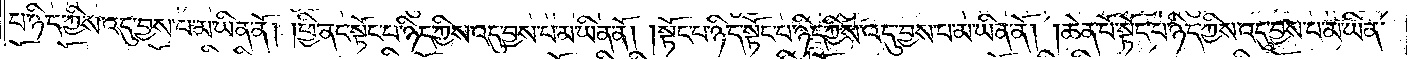པ་ཉིད་ཀྱིས་འདུ་བྱས་པ་མ་ཡིན་ནོ། །ཕྱི་ནང་སྟོང་པ་ཉིད་ཀྱིས་འདུ་བྱས་པ་མ་ཡིན་ནོ། །སྟོང་པ་ཉིད་སྟོང་པ་ཉིད་ཀྱིས་འདུ་བྱས་པ་མ་ཡིན་ནོ། །ཆེན་པོ་སྟོང་པ་ཉིད་ཀྱིས་འདུ་བྱས་པ་མ་ཡིན་
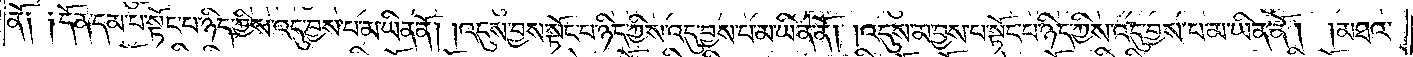ནོ༑ ༑དོན་དམ་པ་སྟོང་པ་ཉིད་ཀྱིས་འདུ་བྱས་པ་མ་ཡིན་ནོ། །འདུས་བྱས་སྟོང་པ་ཉིད་ཀྱིས་འདུ་བྱས་པ་མ་ཡིན་ནོ། །འདུས་མ་བྱས་པ་སྟོང་པ་ཉིད་ཀྱིས་འདུ་བྱས་པ་མ་ཡིན་ནོ། །མཐའ་
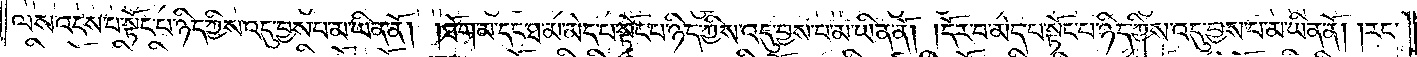ལས་འདས་པ་སྟོང་པ་ཉིད་ཀྱིས་འདུ་བྱས་པ་མ་ཡིན་ནོ། །ཐོག་མ་དང་ཐ་མ་མེད་པ་སྟོང་པ་ཉིད་ཀྱིས་འདུ་བྱས་པ་མ་ཡིན་ནོ། །དོར་བ་མེད་པ་སྟོང་པ་ཉིད་ཀྱིས་འདུ་བྱས་པ་མ་ཡིན་ནོ། །རང་
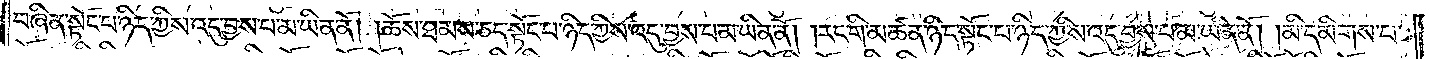བཞིན་སྟོང་པ་ཉིད་ཀྱིས་འདུ་བྱས་པ་མ་ཡིན་ནོ། །ཆོས་ཐམས་ཅད་སྟོང་པ་ཉིད་ཀྱིས་འདུ་བྱས་པ་མ་ཡིན་ནོ། །རང་གི་མཚན་ཉིད་སྟོང་པ་ཉིད་ཀྱིས་འདུ་བྱས་པ་མ་ཡིན་ནོ། །མི་དམིགས་པ་
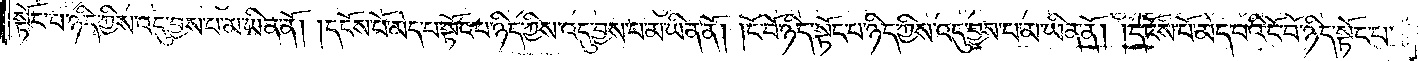སྟོང་པ་ཉིད་ཀྱིས་འདུ་བྱས་པ་མ་ཡིན་ནོ། །དངོས་པོ་མེད་པ་སྟོང་པ་ཉིད་ཀྱིས་འདུ་བྱས་པ་མ་ཡིན་ནོ། །ངོ་བོ་ཉིད་སྟོང་པ་ཉིད་ཀྱིས་འདུ་བྱས་པ་མ་ཡིན་ནོ། །དངོས་པོ་མེད་པའི་ངོ་བོ་ཉིད་སྟོང་པ་
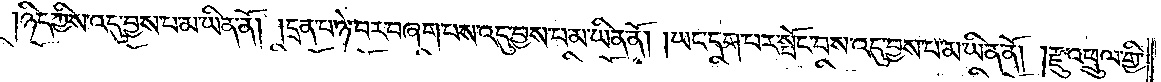ཉིད་ཀྱིས་འདུ་བྱས་པ་མ་ཡིན་ནོ། །དྲན་པ་ཉེ་བར་བཞག་པས་འདུ་བྱས་པ་མ་ཡིན་ནོ། །ཡང་དག་པར་སྤོང་བས་འདུ་བྱས་པ་མ་ཡིན་ནོ། །རྫུ་འཕྲུལ་གྱི་
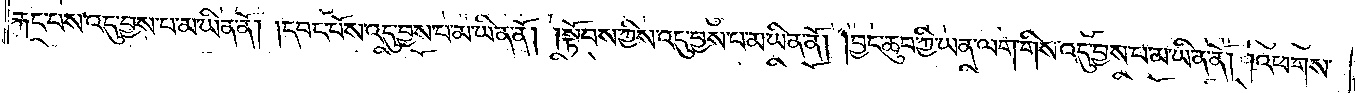རྐང་པས་འདུ་བྱས་པ་མ་ཡིན་ནོ། །དབང་པོས་འདུ་བྱས་པ་མ་ཡིན་ནོ། །སྟོབས་ཀྱིས་འདུ་བྱས་པ་མ་ཡིན་ནོ། །བྱང་ཆུབ་ཀྱི་ཡན་ལག་གིས་འདུ་བྱས་པ་མ་ཡིན་ནོ། །འཕགས་
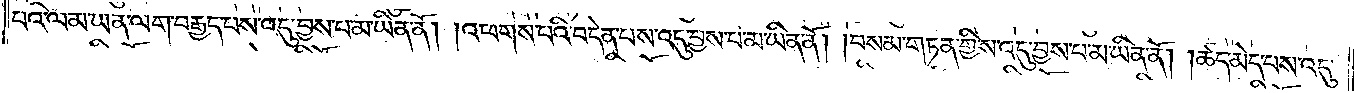པའི་ལམ་ཡན་ལག་བརྒྱད་པས་འདུ་བྱས་པ་མ་ཡིན་ནོ། །འཕགས་པའི་བདེན་པས་འདུ་བྱས་པ་མ་ཡིན་ནོ། །བསམ་གཏན་གྱིས་འདུ་བྱས་པ་མ་ཡིན་ནོ། །ཚད་མེད་པས་འདུ་
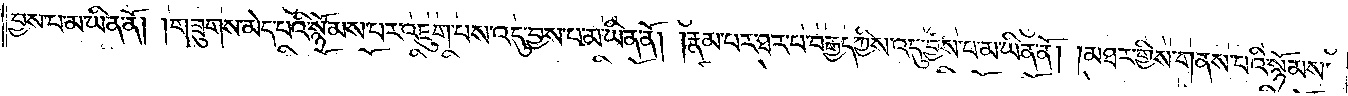བྱས་པ་མ་ཡིན་ནོ། །གཟུགས་མེད་པའི་སྙོམས་པར་འཇུག་པས་འདུ་བྱས་པ་མ་ཡིན་ནོ། །རྣམ་པར་ཐར་པ་བརྒྱད་ཀྱིས་འདུ་བྱས་པ་མ་ཡིན་ནོ། །མཐར་གྱིས་གནས་པའི་སྙོམས་
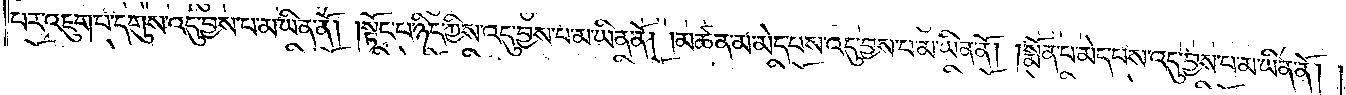པར་འཇུག་པ་དགུས་འདུ་བྱས་པ་མ་ཡིན་ནོ། །སྟོང་པ་ཉིད་ཀྱིས་འདུ་བྱས་པ་མ་ཡིན་ནོ། །མཚན་མ་མེད་པས་འདུ་བྱས་པ་མ་ཡིན་ནོ། །སྨོན་པ་མེད་པས་འདུ་བྱས་པ་མ་ཡིན་ནོ། །
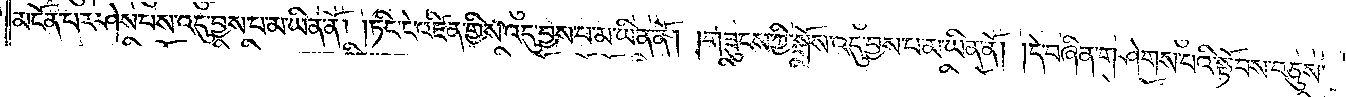མངོན་པར་ཤེས་པས་འདུ་བྱས་པ་མ་ཡིན་ནོ། །ཏིང་ངེ་འཛིན་གྱིས་འདུ་བྱས་པ་མ་ཡིན་ནོ། །གཟུངས་ཀྱི་སྒོས་འདུ་བྱས་པ་མ་ཡིན་ནོ། །དེ་བཞིན་གཤེགས་པའི་སྟོབས་བཅུས་
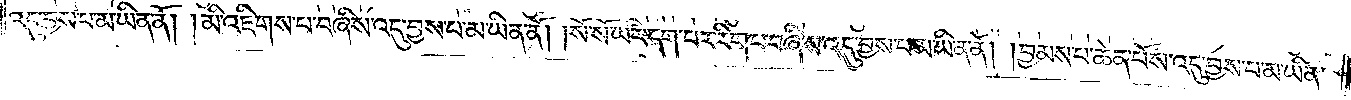འདུ་བྱས་པ་མ་ཡིན་ནོ། །མི་འཇིགས་པ་བཞིས་འདུ་བྱས་པ་མ་ཡིན་ནོ། །སོ་སོ་ཡང་དག་པར་རིག་པ་བཞིས་འདུ་བྱས་པ་མ་ཡིན་ནོ། །བྱམས་པ་ཆེན་པོས་འདུ་བྱས་པ་མ་ཡིན་
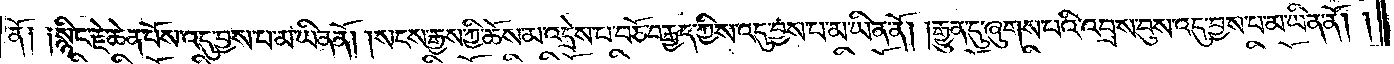ནོ༑ ༑སྙིང་རྗེ་ཆེན་པོས་འདུ་བྱས་པ་མ་ཡིན་ནོ། །སངས་རྒྱས་ཀྱི་ཆོས་མ་འདྲེས་པ་བཅོ་བརྒྱད་ཀྱིས་འདུ་བྱས་པ་མ་ཡིན་ནོ། །རྒྱུན་དུ་ཞུགས་པའི་འབྲས་བུས་འདུ་བྱས་པ་མ་ཡིན་ནོ། །
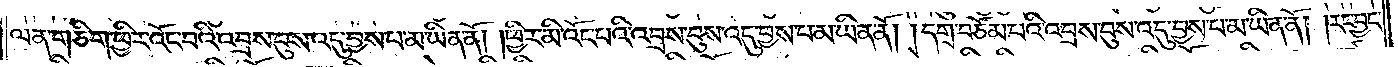ལན་གཅིག་ཕྱིར་འོང་བའི་འབྲས་བུས་འདུ་བྱས་པ་མ་ཡིན་ནོ། །ཕྱིར་མི་འོང་བའི་འབྲས་བུས་འདུ་བྱས་པ་མ་ཡིན་ནོ། །དགྲ་བཅོམ་པའི་འབྲས་བུས་འདུ་བྱས་པ་མ་ཡིན་ནོ། །རང་བྱང་
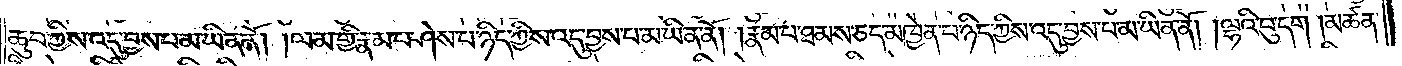ཆུབ་ཀྱིས་འདུ་བྱས་པ་མ་ཡིན་ནོ། །ལམ་གྱི་རྣམ་པ་ཤེས་པ་ཉིད་ཀྱིས་འདུ་བྱས་པ་མ་ཡིན་ནོ། །རྣམ་པ་ཐམས་ཅད་མཁྱེན་པ་ཉིད་ཀྱིས་འདུ་བྱས་པ་མ་ཡིན་ནོ། །ལྷའི་བུ་དག །མཚན་
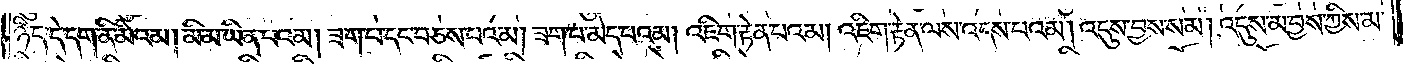ཉིད་དེ་དག་ནི་མིའམ། མི་མ་ཡིན་པའམ། ཟག་པ་དང་བཅས་པའམ། ཟག་པ་མེད་པའམ། འཇིག་རྟེན་པའམ། འཇིག་རྟེན་ལས་འདས་པའམ། འདུས་བྱས་སམ། འདུས་མ་བྱས་ཀྱིས་མ་
